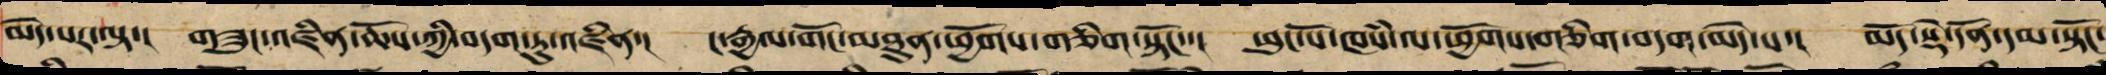མེད་པར་ལྟ་། གཟུང་འཛིན་ཆོས་ཀྱི་བདག་ཏུ་འཛིན་། ང་རྒྱལ་གོང་མཐུན་ཕྱོགས་གཅིག་སྟོང་་། ཕུང་པོ་ཁཾས་ལ་ཕྱོགས་གཅིག་བདག་མེད་པ་། མདོ་སྡེ་དོན་དམ་སྟོང་
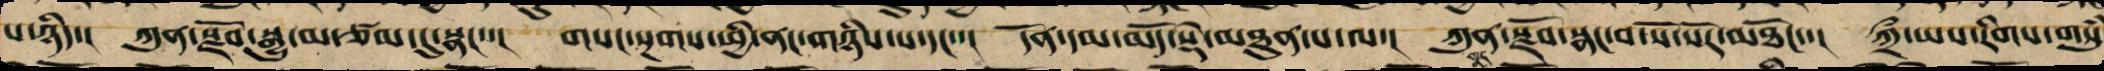པ་ཉིད་། ཀུན་སྫོབ་སྒྱུ་མ་ཙམ་དུ་སྣང་་། གསང་སྔགས་ཕྱི་ནང་གཉིས་པ་དང་་། དོན་དམ་མདོ་སྡེ་མཐུན་པ་ལ་། ཀུན་སྫོབ་སྣང་བ་སོ་སོར་མཐོང་་། ཀྲྀ་ཡས་རིགས་གསུཾ
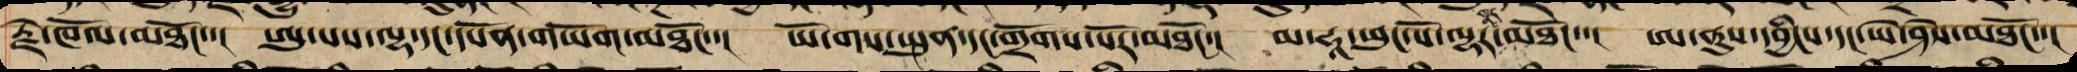རྗེ་ཁོལ་མཐོང་་། ཨུ་པས་ལྷ་དང་དཔོན་གཡོག་མཐོང་་། ཡོ་གས་སྤུན་དང་གྲོགས་པོར་མཐོང་། མ་ཧཱ་ཕུང་པོ་ལྷར་མཐོང་་། ཨ་ནུས་དབྱིངས་དང་ཡེ་ཤེས་མཐོང་་།
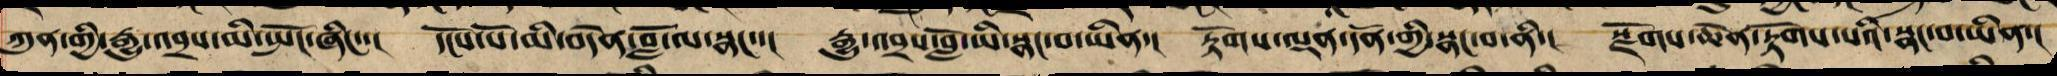ཀུན་གྱི་རྒྱུ་འབྲས་མི་སྤོང་ཞིང་་། དངོས་པོ་མི་བདེན་བློ་ལ་སྣང་་། རྒྱུ་འབྲས་བློ་ཡི་སྣང་བ་ཡིན་། རྟོགས་ལྡན་དོན་གྱི་སྣང་བ་ནི་། སྫོགས་ཆེན་རྟོགས་པའི་སྣང་བ་ཡིན་།
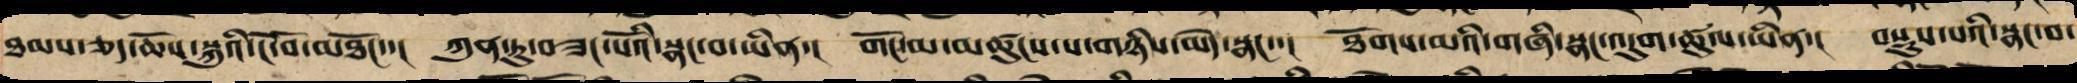ཐམས་ཅད་ཆོས་སྐུའི་ངོ་བོ་མཐོང་་། ཀུན་ཏུ་བཟང་པོའི་སྣང་བ་ཡིན་། གོང་མ་མཚུངས་པ་གཉིས་མེད་སྣང་་། ཐོགས་མའི་གཞི་སྣང་འདུག་ཚུལ་ཡིན་། བསྡུས་པའི་སྣང་བ་
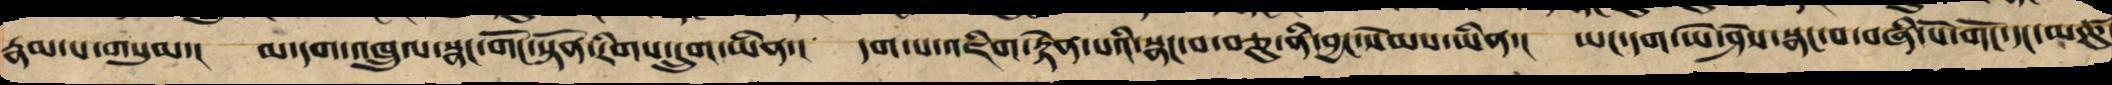རྣམ་པ་གསུམ་། མ་དག་འཁྲུལ་སྣང་གོང་སྟོན་རིགས་དྲུག་ཡིན་། དག་པ་འཇིག་རྟེན་པའི་སྣང་བ་བཅུ་ནི་བྱང་སེམས་ཡིན་། ཡང་དག་ཡེ་ཤེས་སྣང་བ་བཞི་པོ་གོང་དང་མཚུ
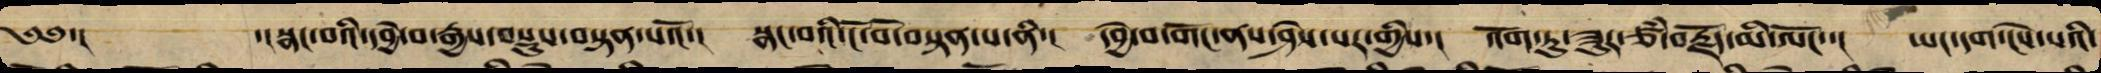༄༅་། ་།སྣང་བའི་དབྱེ་བ་རྒྱས་བསྡུས་བསྟན་པའོ་། སྣང་བའི་ངོ་བོ་བསྟན་པ་ནི་། དབྱེ་བ་གོང་ནས་ཤེས་པར་གྱིས་། འོག་ཏུ་ཟུར་ཙཾ་བརྗོད་མི་ལོང་་། ཡང་དག་ངེས་པའི་
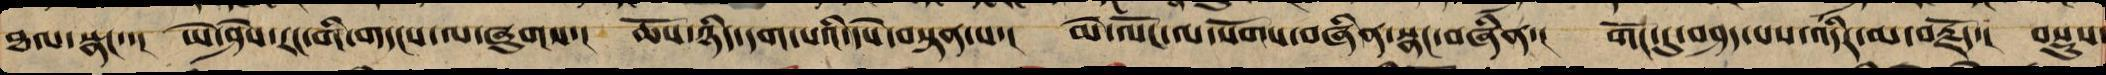ཐལ་སྣང་་། ཡེ་ཤེས་རང་གི་གདངས་ལ་ཞུགས་། ཆོས་ཉིད་དག་པའི་དཔེ་བསྟན་པ་། མེ་ལོང་ལ་སོགས་བཞིན་སྣང་བཞིན་། གོང་དུ་བཤད་པས་འདིར་མ་བརྗོད་། བསྡུས་
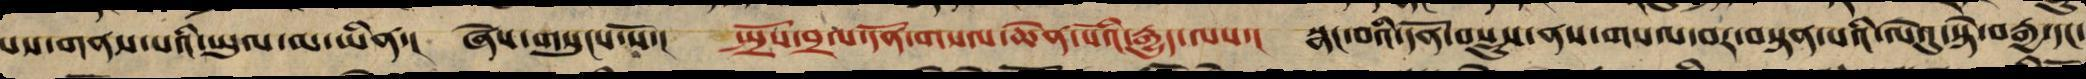པས་གནས་པའི་ཡུལ་མ་ཡིན་། ཞེས་གསུངས་སོ་། སྤྲོས་བྲལ་དོན་གསལ་ཆེན་པོའི་རྒྱུད་ལས་། སྣང་བའི་དོན་བསྡུས་ནས་གསལ་བར་བསྟན་པའི་ལེའུ་སྟེ་བརྒྱ་དང་
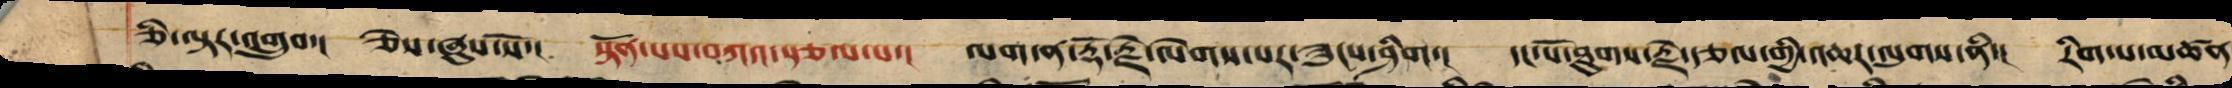ཅི་ལྟར་གྲུབས་། ཅེས་ཞུས་སོ་། སྟོན་པས་བཀའ་སྩལ་པ་། ལག་ན་རྡོ་རྗེ་ལེགས་པར་ཟུངས་ཤིག་། དང་པོ་ཐུགས་རྗེ་རྩལ་གྱི་འཆར་ལུགས་ནི་། རིག་པ་མཚན
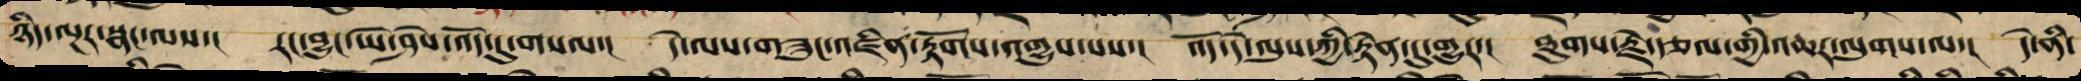ཉིད་ལྔར་སྣང་ལས་། རང་བྱུང་ཡེ་ཤེས་འོད་དུ་གསལ་། དེ་ལས་གཟུང་འཛིན་རྟོགས་འགྱུས་པས་། འོད་དེ་ལུས་ཀྱི་རྟེན་དུ་གྱུར་། ཐུགས་རྗེ་རྩལ་གྱི་འཆར་ལུགས་ལ་། དེ་ནི་
